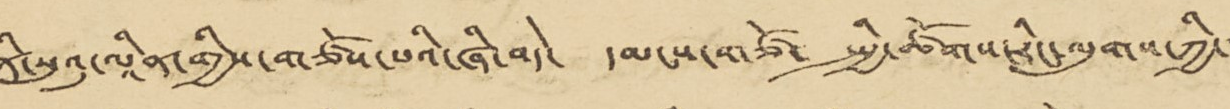ནི་སུའུ་ལཱིན་གྱིས་གཙོས་པའི་ཞི་བདེ་ དམངས་གཙོ་ སྤྱི་ཚོགས་རིང་ལུགས་ཀྱི་་་
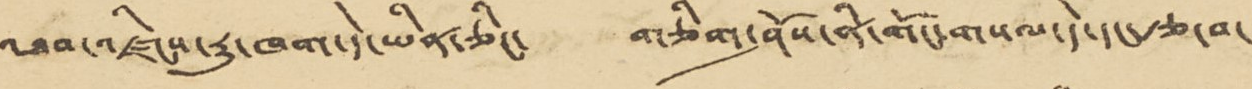འཐབ་འཛིངས་རུ་ཁག་དེ་ཡིན་ཅིང་ གཅིག་ཤོས་ནི་གོང་གསལ་དེ་དང་རྩ་བ་
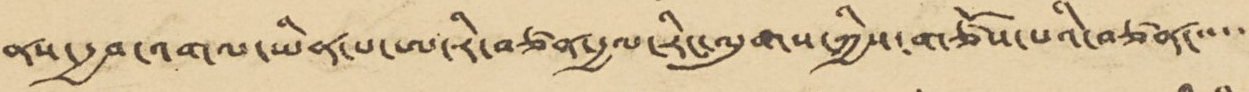ནས་རྒྱབ་འགལ་ཡིན་པ་ཨ་རི་བཙན་རྒྱལ་རིང་ལུགས་ཀྱིས་གཙོས་པའི་བཙན་་་་་་
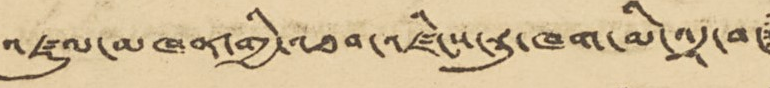འཛུལ་མཁན་གྱི་འཐབ་འཛིངས་རུ་ཁག་མི་འདྲ་བ་
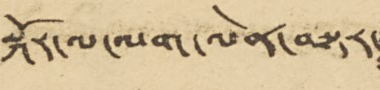སྐོར་ལ་ལག་ལེན་བསྟར་
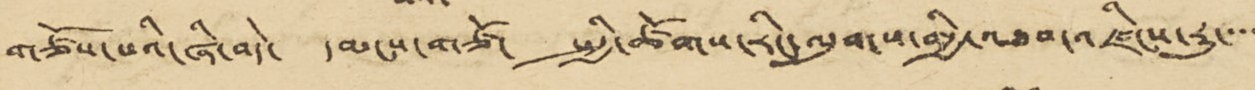གཙོས་པའི་ཞི་བདེ་ དམངས་གཙོ་ སྤྱི་ཚོགས་རིང་ལུགས་གྱི་འཐབ་འཛིངས་རུ་་་་
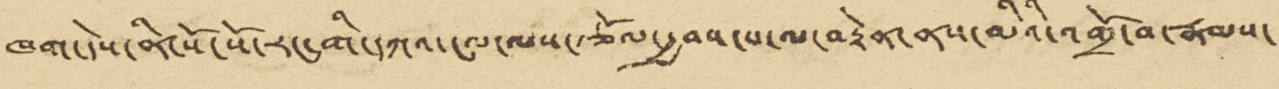ཁག་དེས་ནི་སོ་སོ་རང་གི་དཀའ་ངལ་ལས་རྩོལ་རྒྱབས་པ་ལ་བརྟེན་ནས་མིའི་འགྲོ་བ་རྣམས་
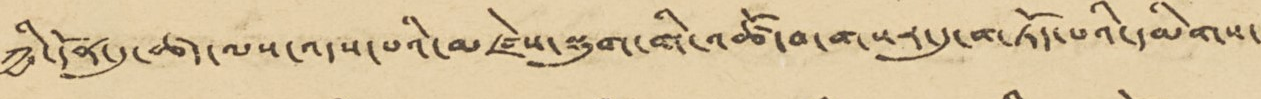ཀྱི་དོན་དུ་ཚད་ལས་འདས་པའི་མཛེས་སྡུག་གི་འཚོ་བ་གསར་དུ་གཏོད་པའི་དམིགས་
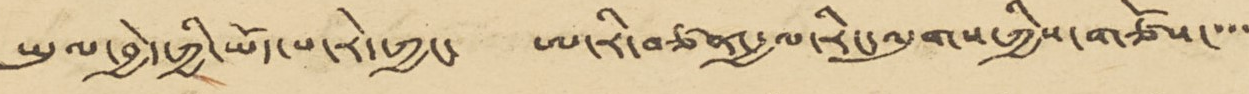ཡུལ་བྱེད་ཀྱི་ཡོད་པ་རེད་ཀྱང་ ཨ་རི་བཙན་རྒྱལ་རིང་ལུགས་ཀྱིས་གཙོས་་་་
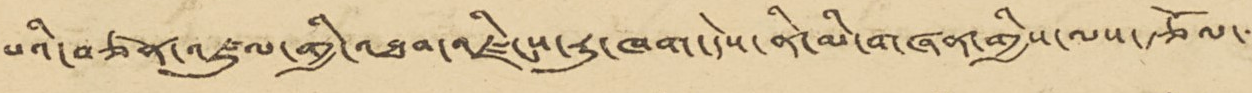པའི་བཙན་འཛུལ་གྱི་འཐབ་འཛིངས་རུ་ཁག་དེས་ནི་མི་གཞན་གྱིས་ལས་རྩོལ་་་
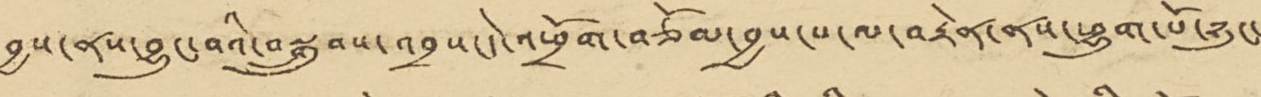བྱས་ནས་བྱུང་བའི་བསྒྲུབས་འབྲས་དེ་འཕྲོག་བཅོམ་བྱས་པ་ལ་བརྟེན་ནས་ཕྱུག་པོ་ཉུང་
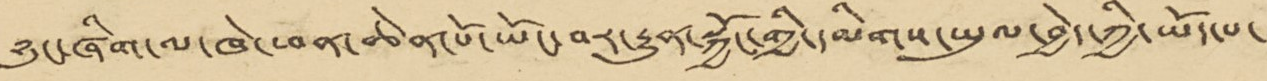ཉུང་ཞིག་ལ་ཁེ་ཕན་ཆེན་པོ་ཡོང་བར་རྒྱུན་སྐྱོང་གྱི་དམིགས་ཡུལ་བྱེད་ཀྱི་ཡོད་པ་
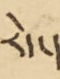རེད་།
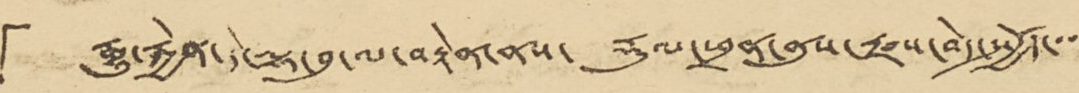「རྒྱུ་རྐྱེན་དེ་ལྟ་བུ་ལ་བརྟེན་ནས་ རྡུལ་ཕྲན་ནུས་རྫས་བེད་སྤྱོད་་་
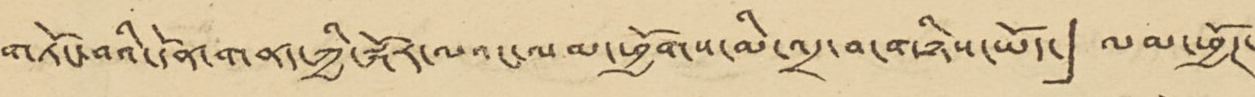གཏོང་བའི་དོན་གནད་ཀྱི་སྐོར་ལའང་ལམ་ཕྱོགས་མི་འདྲ་བ་གཉིས་ཡོད་」 ལམ་ཕྱོཊ་
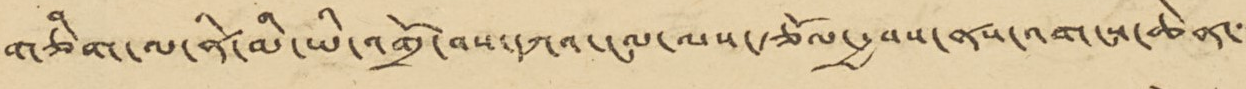གཅིག་ལ་ནི་མི་ཡི་འགྲོ་བས་དཀའ་ངལ་ལས་རྩོལ་རྒྱབས་ནས་འགངས་ཆེན་་་
